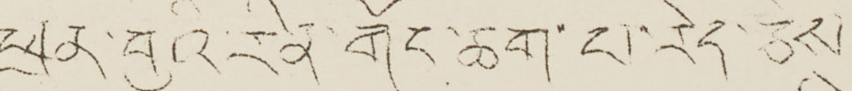ཕྲན་བུའི་རིང་གོང་ཆག་པ་རེད་ཅེས་
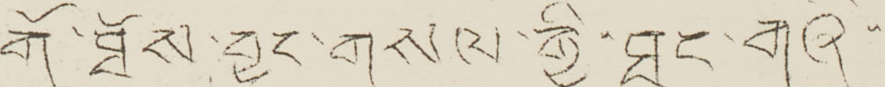གོ་ཐོས་བྱུང་གསལ་ཀྱི་ཐང་གཞི་
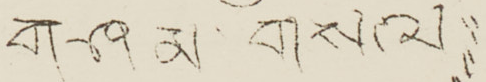གཤམ་གསལ་
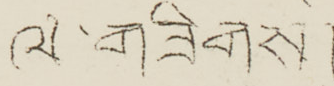ལ་གཟིགས།
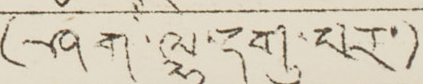( ཤོག་ལྷེ་དགུ་པར་ )
